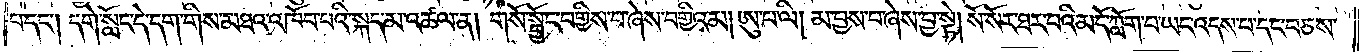པ་དང༌། དགེ་སློང་དེ་དག་གིས་མཐའ་འཁོབ་པའི་སྐད་མ་འཚལ་ན། གསོ་སྦྱོང་བགྱིས་པ་ཞེས་བགྱིའམ། ཨུ་པ་ལི། མ་བྱས་བ་ཞེས་བྱ་སྟེ། སོ་སོར་ཐར་པའི་མདོ་ཀློག་པ་ཡང་འདས་པ་དང་བཅས་
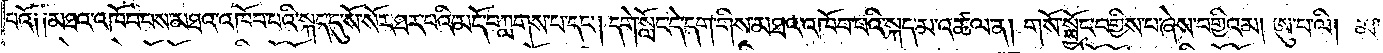པའོ། །མཐའ་འཁོབ་པས་མཐའ་འཁོབ་པའི་སྐད་དུ་སོ་སོར་ཐར་པའི་མདོ་བཀླགས་པ་དང༌། དགེ་སློང་དེ་དག་གིས་མཐའ་འཁོབ་པའི་སྐད་མ་འཚལ་ན། གསོ་སྦྱོང་བགྱིས་པ་ཞེས་བགྱིའམ། ཨུ་པ་ལི། མ་
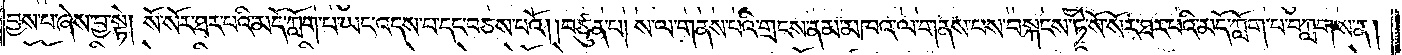བྱས་པ་ཞེས་བྱ་སྟེ། སོ་སོར་ཐར་པའི་མདོ་ཀློག་པ་ཡང་འདས་པ་དང་བཅས་པའོ། །བཙུན་པ། ས་ལ་གནས་པའི་གྲངས་ནམ་མཁའ་ལ་གནས་པས་བསྐངས་ཏེ་སོ་སོར་ཐར་པའི་མདོ་ཀློག་པ་བཀླགས་ན།
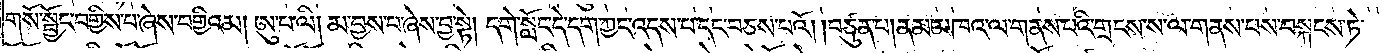གསོ་སྦྱོང་བགྱིས་པ་ཞེས་བགྱིའམ། ཨུ་པ་ལི། མ་བྱས་པ་ཞེས་བྱ་སྟེ། དགེ་སློང་དེ་དག་ཀྱང་འདས་པ་དང་བཅས་པའོ། །བཙུན་པ། ནམ་མཁའ་ལ་གནས་པའི་གྲངས་ས་ལ་གནས་པས་བསྐངས་ཏེ་
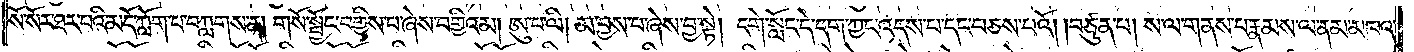སོ་སོར་ཐར་པའི་མདོ་ཀློག་པ་བཀླགས་ན། གསོ་སྦྱོང་བགྱིས་པ་ཞེས་བགྱིའམ། ཨུ་པ་ལི། མ་བྱས་པ་ཞེས་བྱ་སྟེ། དགེ་སློང་དེ་དག་ཀྱང་འདས་པ་དང་བཅས་པའོ། །བཙུན་པ། ས་ལ་གནས་པ་རྣམས་ལ་ནམ་མཁའ་
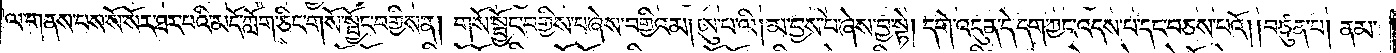ལ་གནས་པས་སོ་སོར་ཐར་པའི་མདོ་ཀློག་ཅིང་གསོ་སྦྱོང་བགྱིས་ན། གསོ་སྦྱོང་བགྱིས་པ་ཞེས་བགྱིའམ། ཨུ་པ་ལི། མ་བྱས་པ་ཞེས་བྱ་སྟེ། དགེ་འདུན་དེ་དག་ཀྱང་འདས་པ་དང་བཅས་པའོ། །བཙུན་པ། ནམ་
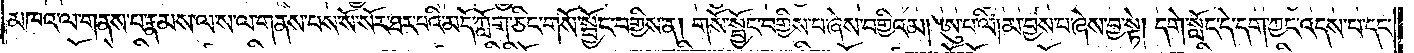མཁའ་ལ་གནས་པ་རྣམས་ལ་ས་ལ་གནས་པས་སོ་སོར་ཐར་པའི་མདོ་ཀློག་ཅིང་གསོ་སྦྱོང་བགྱིས་ན། གསོ་སྦྱོང་བགྱིས་པ་ཞེས་བགྱིའམ། ཨུ་པ་ལི། མ་བྱས་པ་ཞེས་བྱ་སྟེ། དགེ་སློང་དེ་དག་ཀྱང་འདས་པ་དང་
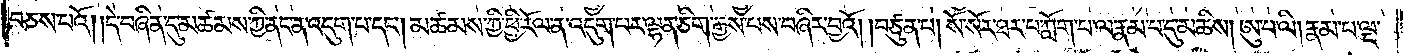བཅས་པའོ། །དེ་བཞིན་དུ་མཚམས་ཀྱི་ནང་ན་འདུག་པ་དང༌། མཚམས་ཀྱི་ཕྱི་རོལ་ན་འདུག་པར་ལྷན་ཅིག་རྒྱས་པས་བཞིར་བྱའོ། །བཙུན་པ། སོ་སོར་ཐར་པ་ཀློག་པ་ལ་རྣམ་པ་དུ་མཆིས། ཨུ་པ་ལི། རྣམ་པ་ལྔ་
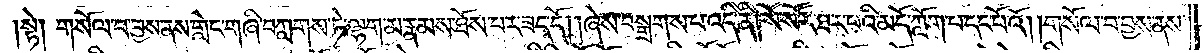།སྟེ། གསོལ་བ་བྱས་ནས་གླེང་གཞི་བཀླགས་ཏེ་ལྷག་མ་རྣམས་ཐོས་པར་ཟད་དོ། །ཞེས་བསྒྲགས་པ་འདི་ནི། སོ་སོར་ཐར་པའི་མདོ་ཀློག་པ་དང་པོའོ། །གསོལ་བ་བྱས་ནས་
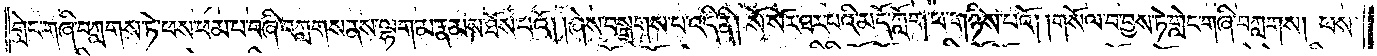གླེང་གཞི་བཀླགས་ཏེ་ཕས་ཕམ་པ་བཞི་བཀླགས་ནས་ལྷག་མ་རྣམས་ཐོས་པའོ། །ཞེས་བསྒྲགས་པ་འདི་ནི། སོ་སོར་ཐར་པའི་མདོ་ཀློག་པ་གཉིས་པའོ། །གསོལ་བ་བྱས་ཏེ་གླེང་གཞི་བཀླགས། ཕས་
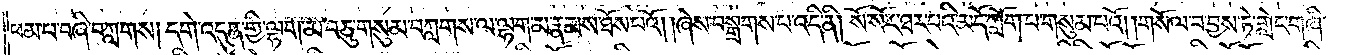ཕམ་པ་བཞི་བཀླགས། དགེ་འདུན་གྱི་ལྷག་མ་བཅུ་གསུམ་བཀླགས་ལ་ལྷག་མ་རྣམས་ཐོས་པའོ། །ཞེས་བསྒྲགས་པ་འདི་ནི། སོ་སོར་ཐར་པའི་མདོ་ཀློག་པ་གསུམ་པའོ། །གསོལ་བ་བྱས་ཏེ་གླེང་གཞི་
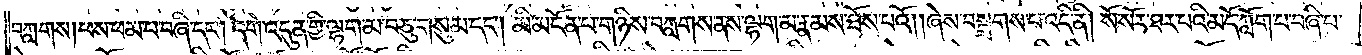བཀླགས། ཕས་ཕམ་པ་བཞི་དང༌། དགེ་འདུན་གྱི་ལྷག་མ་བཅུ་གསུམ་དང༌། མི་མངོན་པ་གཉིས་བཀླགས་ནས་ལྷག་མ་རྣམས་ཐོས་པའོ། །ཞེས་བསྒྲགས་པ་འདི་ནི། སོ་སོར་ཐར་པའི་མདོ་ཀློག་པ་བཞི་པ་
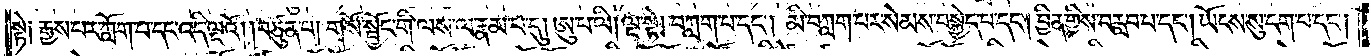སྟེ༑ རྒྱས་པ་ཀློག་པ་དང་འདི་ལྔའོ། །བཙུན་པ། གསོ་སྦྱོང་གི་ལས་ལ་རྣམ་པ་དུ། ཨུ་པ་ལི། ལྔ་སྟེ། བཀླག་པ་དང༌། མི་བཀླག་པར་སེམས་བསྐྱེད་པ་དང༌། བྱིན་གྱིས་བརླབ་པ་དང༌། ཡོངས་སུ་དག་པ་དང༌།
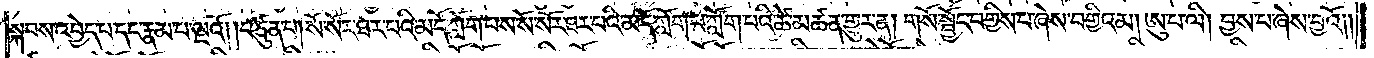སྐབས་འབྱེད་པ་དང་རྣམ་པ་ལྔའོ། །བཙུན་པ། སོ་སོར་ཐར་པའི་མདོ་ཀློག་པས་སོ་སོར་ཐར་པའི་མདོ་ཀློག་པ་ཀློག་པའི་ཚེ་མཚན་གྱུར་ན། གསོ་སྦྱོང་བགྱིས་པ་ཞེས་བགྱིའམ། ཨུ་པ་ལི། བྱས་པ་ཞེས་བྱའོ། །
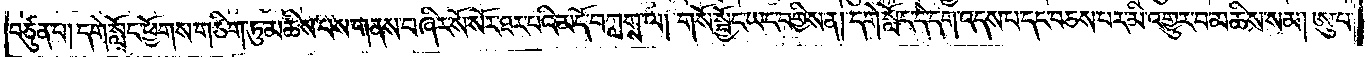བཙུན་པ། དགེ་སློང་ཕྱོགས་གཅིག་ཏུ་མཆིས་པས་གནས་བཞིར་སོ་སོར་ཐར་པའི་མདོ་བཀླགས་ལ། གསོ་སྦྱོང་ཡང་བགྱིས་ན། དགེ་སློང་དེ་དག་འདས་པ་དང་བཅས་པར་མི་འགྱུར་བ་མཆིས་སམ། ཨུ་པ་
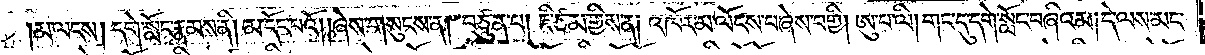།མ་ལངས། དགེ་སློང་རྣམས་ནི། མ་དོང་པའོ། །ཞེས་གསུངས་ན། བཙུན་པ། ཇི་ཙམ་གྱིས་ན། འཁོར་མ་ལོངས་པ་ཞེས་བགྱི། ཨུ་པ་ལི། གང་དུ་དགེ་སློང་བཞིའམ། དེ་ལས་མང་
